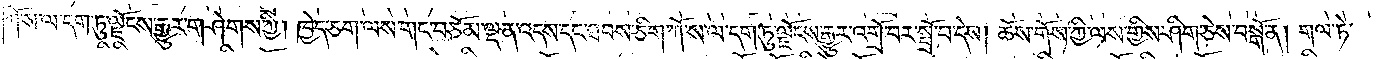ཀོ་ས་ལ་དག་ཏུ་ལྗོངས་རྒྱུར་གཤེགས་ཀྱི། ཁྱེད་ཅག་ལས་གང་བཅོམ་ལྡན་འདས་དང་ཐབས་ཅིག་ཀོ་ས་ལ་དག་ཏུ་ལྗོངས་རྒྱུར་འགྲོ་བར་སྤྲོ་བ་དེས། ཆོས་གོས་ཀྱི་ལས་ཀྱིས་ཤིག་ཅེས་བསྒོ་ན། གལ་ཏེ་
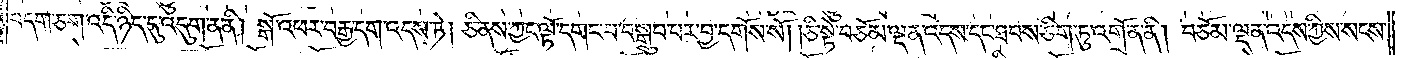བདག་ཅག་འདི་ཉིད་དུ་འདུག་ན་ནི། སྒོ་འཕར་བརྒྱ་དག་འདས་ཏེ། ཅི་ནས་ཀྱང་ལྟོ་དགང་བ་བསྒྲུབ་པར་བྱ་དགོས་སོ། །ཅི་སྟེ་བཅོམ་ལྡན་འདས་དང་ཐབས་ཅིག་ཏུ་འགྲོ་ན་ནི། བཅོམ་ལྡན་འདས་ཀྱིས་སངས་
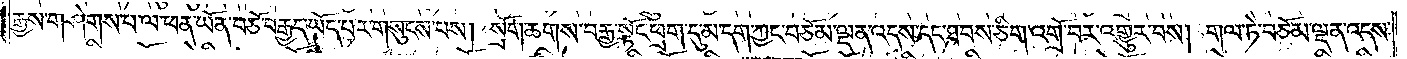རྒྱས་གཤེགས་པ་ལ་ཕན་ཡོན་བཅོ་བརྒྱད་ཡོད་པར་གསུངས་པས། སྲོག་ཆགས་བརྒྱ་སྟོང་ཕྲག་དུ་མ་དག་ཀྱང་བཅོམ་ལྡན་འདས་དང་ཐབས་ཅིག་འགྲོ་བར་འགྱུར་བས། གལ་ཏེ་བཅོམ་ལྡན་འདས་
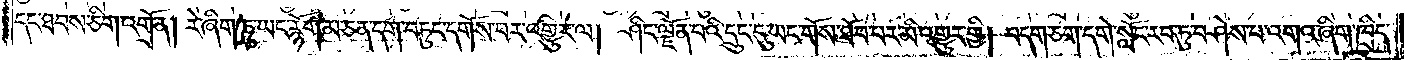དང་ཐབས་ཅིག་འགྲོ་ན། རེ་ཞིག་ཆུ་ཡང་རྙོག་མ་ཅན་དག་བཏུང་དགོས་པར་འགྱུར་ལ། ཤིང་ལྗོན་པའི་དྲུང་དུ་ཡང་གོས་ཐོབ་པར་མི་འགྱུར་གྱི། བདག་ཅག་དགེ་སློང་རབ་ཏུ་བཤེས་པ་འགའ་ཞིག་ཁྲིད་
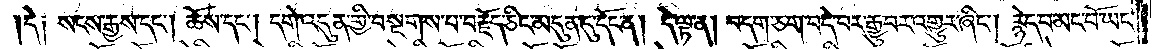དེ༑ སངས་རྒྱས་དང༌། ཆོས་དང༌། དགེ་འདུན་གྱི་བསྔགས་པ་བརྗོད་ཅིང་མདུན་དུ་དོང་ན། དེ་ལྟ་ན། བདག་ཅག་བདེ་བར་རྒྱུ་བར་འགྱུར་ཞིང༌། རྙེད་པ་མང་པོ་ཡང་
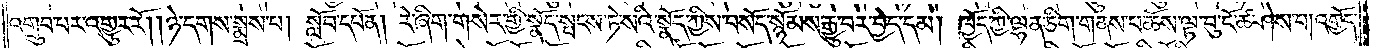འགྲུབ་པར་འགྱུར་རོ། །ཉེ་དགས་སྨྲས་པ། སློབ་དཔོན། རེ་ཞིག་གསེར་གྱི་སྣོད་སྤངས་ཏེ་སའི་སྣོད་ཀྱིས་བསོད་སྙོམས་རྒྱུ་བར་བྱེད་དམ། ཁྱོད་ཀྱི་ལྷན་ཅིག་གནས་པ་ཆོས་ལྟ་བུ་ངོ་ཚ་ཤེས་པ། འགྱོད་
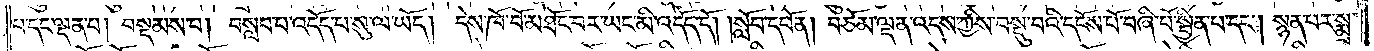པ་དང་ལྡན་པ། བསྡམས་པ། བསླབ་པ་འདོད་པ་སུ་ལ་ཡོད། དེས་ཁོ་བོ་མཐོང་བར་ཡང་མི་འདོད་དོ། །སློབ་དཔོན། བཅོམ་ལྡན་འདས་ཀྱིས་བསྡུ་བའི་དངོས་པོ་བཞི་པོ་སྦྱིན་པ་དང༌། སྙན་པར་སྨྲ་
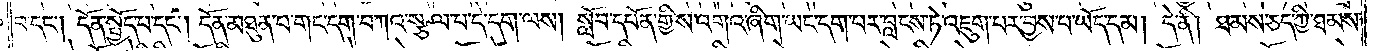བ་དང༌། དོན་སྤྱོད་པ་དང༌། དོན་མཐུན་པ་གང་དག་བཀའ་སྩལ་པ་དེ་དག་ལས། སློབ་དཔོན་གྱིས་འགའ་ཞིག་ཡང་དག་པར་བླངས་ཏེ་འཇུག་པར་བྱས་པ་ཡོད་དམ། དེ་ནི། ཐམས་ཅད་ཀྱི་ཐམས་
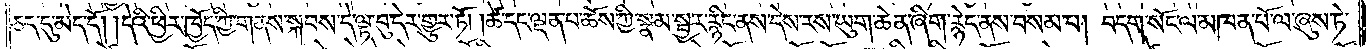ཅད་དུ་མེད་དོ། །དེའི་ཕྱིར་ཁྱོད་ཀྱི་གནས་སྐབས་དེ་ལྟ་བུ་དེར་གྱུར་ཏོ། །ཚེ་དང་ལྡན་པ་ཆོས་ཀྱི་སྣམ་སྦྱར་རྙིང་ནས་དེས་རས་ཡུག་ཆེན་ཞིག་རྙེད་ནས་བསམ་པ། བདག་སོང་ལ་མཁན་པོ་ལ་ཞུས་ཏེ་
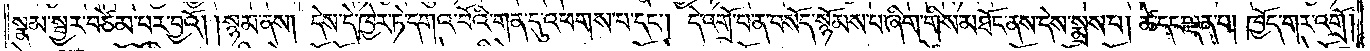སྣམ་སྦྱར་བཙེམ་པར་བྱའོ། །སྙམ་ནས། དེས་དེ་ཁྱེར་ཏེ་དགའ་བོའི་གན་དུ་འཕགས་པ་དང༌། དེ་འགྲོ་བ་ན་བསོད་སྙོམས་པ་ཞིག་གིས་མཐོང་ནས་དེས་སྨྲས་པ། ཚེ་དང་ལྡན་པ། ཁྱོད་གར་འགྲོ།
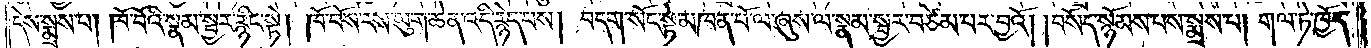དེས་སྨྲས་པ། ཁོ་བོའི་སྣམ་སྦྱར་རྙིང་སྟེ། ཁོ་བོས་རས་ཡུག་ཆེན་འདི་རྙེད་པས། བདག་སོང་སྟེ་མཁན་པོ་ལ་ཞུས་ལ་སྣམ་སྦྱར་བཙེམ་པར་བྱའོ། །བསོད་སྙོམས་པས་སྨྲས་པ། གལ་ཏེ་ཁྱོད་
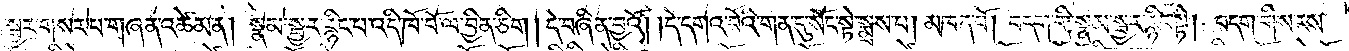སྣམ་སྦྱར་གསར་བ་གཞན་འཚེམ་ན། སྣམ་སྦྱར་རྙིང་པ་འདི་ཁོ་བོ་ལ་བྱིན་ཅིག །དེ་བཞིན་བྱའོ། །དེ་དགའ་བོའི་གན་དུ་སོང་སྟེ་སྨྲས་པ། མཁན་པོ། བདག་གི་སྣམ་སྦྱར་རྙིང་སྟེ། བདག་གིས་རས་
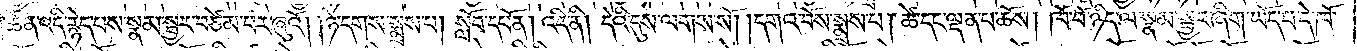ཆེན་འདི་རྙེད་པས་སྣམ་སྦྱར་བཙེམ་པར་ཞུའོ། །ཉེ་དགས་སྨྲས་པ། སློབ་དཔོན། འདི་ནི། དེའི་དུས་ལགས་སོ། །དགའ་བོས་སྨྲས་པ། ཚེ་དང་ལྡན་པ་ཆོས། ཁོ་བོ་ཉིད་ལ་སྣམ་སྦྱར་ཞིག་ཡོད་པ་དེ་ཁོ་
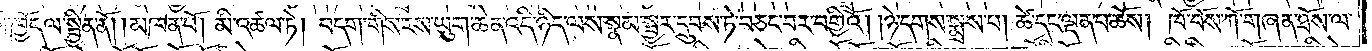བོས་ཁྱོད་ལ་སྦྱིན་ནོ། །མཁན་པོ། མི་འཚལ་ཏེ། བདག་གིས་རས་ཡུག་ཆེན་འདི་ཉིད་ལས་སྣམ་སྦྱར་དྲུབས་ཏེ་བཅང་བར་བགྱིའོ། །ཉེ་དགས་སྨྲས་པ། ཚེ་དང་ལྡན་པ་ཆོས། ཁོ་བོས་ཀོ་གཞན་ཐོས་ལ་
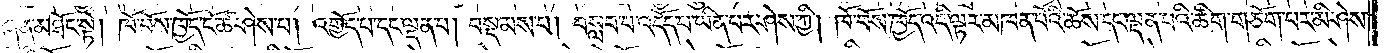གཞན་མཐོང་སྟེ། ཁོ་བོས་ཁྱོད་ངོ་ཚ་ཤེས་པ། འགྱོད་པ་དང་ལྡན་པ། བསྡམས་པ། བསླབ་པ་འདོད་པ་ཡིན་པར་ཤེས་ཀྱི། ཁོ་བོས་ཁྱོད་འདི་ལྟར་མཁན་པོའི་ཆོས་དང་ལྡན་པའི་ཚིག་གཅོག་པར་མི་ཤེས་
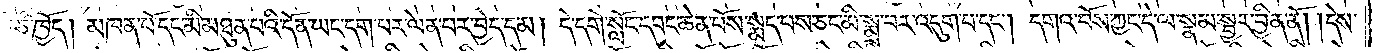ཅི་ཁྱོད། མཁན་པོ་དང་མི་མཐུན་པའི་དོན་ཡང་དག་པར་ལེན་པར་བྱེད་དམ། དེ་དགེ་སློང་དབང་ཆེན་པོས་སྨད་པས་ཅང་མི་སྨྲ་བར་འདུག་པ་དང༌། དགའ་བོས་ཀྱང་དེ་ལ་སྣམ་སྦྱར་བྱིན་ནོ། །དེས་
